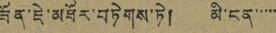ཟོན་ཇེ་མཐོར་བཏེགས་ཏེ། མི་ངན་་་་་
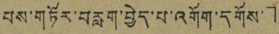པས་གཏོར་བརླག་བྱེད་པ་འགོག་དགོས་」
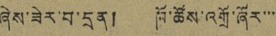ཞེས་ཟེར་བ་དྲན། ཁོ་ཚོས་འགྲོ་ཞོར་་་་
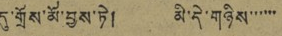དུ་གྲོས་མོ་བྱས་ཏེ། མི་དེ་གཉིས་་་་་་
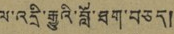ལ་འདྲི་རྒྱུའི་བློ་ཐག་བཅད།
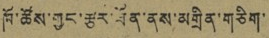ཁོ་ཚོས་གྱང་རྩར་ཐོན་ནས་མགྲིན་གཅིག་
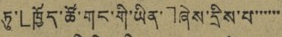ཏུ་「ཁྱོད་ཚོ་གང་གི་ཡིན་」ཞེས་དྲིས་པ་་་་་་
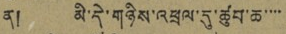ན། མི་དེ་གཉིས་འཕྲལ་དུ་ཚུབ་ཆ་་་་
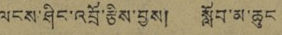ལངས་ཤིང་འབྲོ་རྩིས་བྱས། སློབ་མ་ཆུང
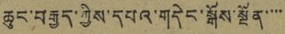ཆུང་བརྒྱད་ཀྱིས་དཔའ་གདེང་སྒོས་སྔོན་་་་
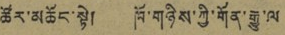ཚོར་མཆོང་སྟེ། ཁོ་གཉིས་ཀྱི་གོན་རྒྱུ་ལ
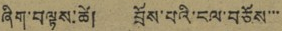ཞིག་བལྟས་ཚེ། བྲོས་པའི་ངལ་བཅོས་་་
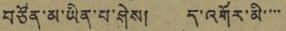བཙོན་མ་ཡིན་པ་ཤེས། ད་འགོར་མི་་་་
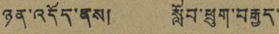ཉན་འདོད་ནས། སློབ་ཕྲུག་བརྒྱད་
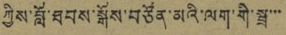ཀྱིས་བློ་ཐབས་སྒོས་བཙོན་མའི་ལག་གི་སྦྲ་་་
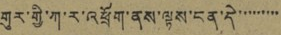གུར་གྱི་ཀ་ར་འཕྲོག་ནས་སྟས་ངན་དེ་་་་་་་་་
